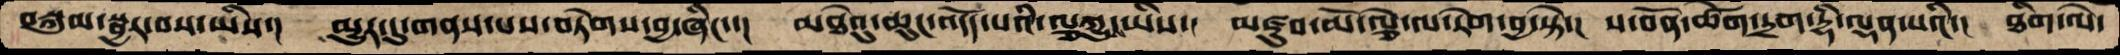བསྐུམ་སྦྱར་བས་ཡིས་།  མྱུར་དུ་གནས་པས་བཏེགས་བྱ་ཞིང་་།  མཐེའུ་ཆུང་འདོད་པའི་ལྕཀྱུ་ཡིས་།  མཛུབ་མོ་ལྕེ་ལ་རེག་བྱ་སྟེ་།   ས་བོན་ཚེག་དྲག་དྷི་ལྡན་པའི་།  ཐིག་ལེ་
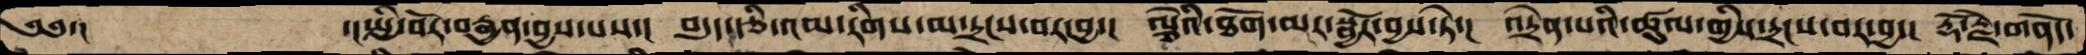༄༅་།              དངསྤྱི་བོར་བརྒྱན་བྱས་པས་།  བདུད་རྩི་འམ་རིགས་མ་དྲངས་བར་བྱ་།  ལྕེའི་ཐོག་མར་སྦྱོར་བྱས་ཏེ་།  འདྲེན་པའི་ཚུལ་གྱིས་དྲངས་བར་བྱ་།  རྡོ་རྗེ་གནོད་
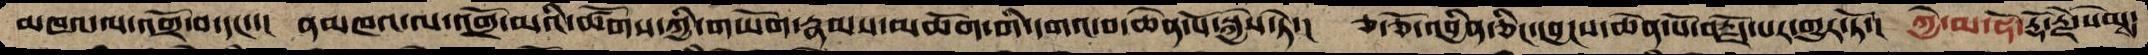མཁའ་ལ་འགྲོ་བ་དང་་།  ནམཁའ་ལ་འགྲོ་མའི་ཚོགས་ཀྱི་གཡོག་རྣམས་མཆོག་གི་དགའ་བ་ཆེན་པོ་སྐྱེས་ཏེ་། ཅ་ཅོ་འབྱིན་ཅིང་དབྱངས་ཆེན་པོ་བརྗོད་པར་འགྱུར་ཏོ་། ཀྱེ་མ་ཧོ་རྡོ་རྗེ་སེམས་
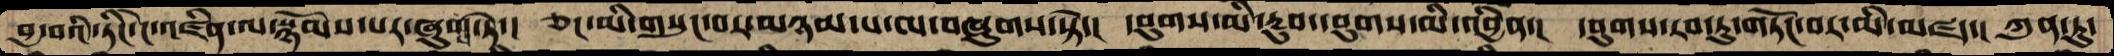བྱ་བའི་ཏིང་ངེ་འཛིན་ལ་སྙོམས་པར་ཞུགས་ཏེ་། ཅང་མི་གསུང་བར་མཉམ་པ་ལ་བཞུགས་སྟེ་། དབུགས་མི་རྔུབ་དབུགས་མི་འབྱིན་། དབུགས་རབ་ཏུ་གཏོང་བར་མི་མཛད་། ཀུན་ཏུ་
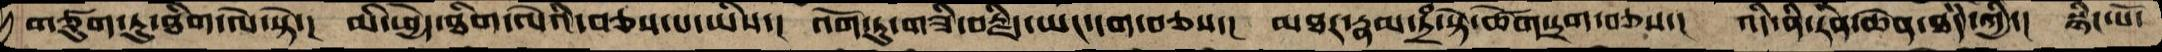གཙུག་ཏུ་ཐིག་ལེ་སྟེ་། མི་ཕྱེད་ཐིག་ལེའི་བཅས་པ་ཡིས་། འོག་ཏུ་གཟི་བརྗིད་ཡང་དག་བཅས་། མཐར་རྣམ་ཏྲཾ་སྟེ་ཚེག་དྲག་བཅས་། འདི་ནི་རིན་ཆེན་ཐདཾ་ཀྱི་། སྙིང་པོ་
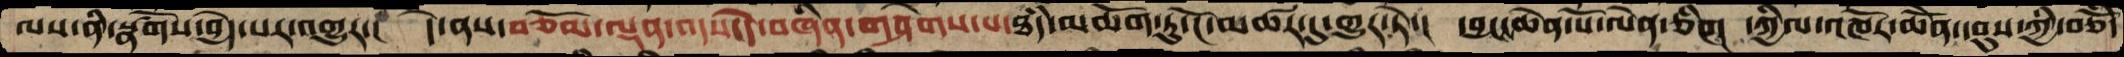ལས་ནི་སྣཚོགས་བྱེད་པར་འགྱུར་། དེ་ནས་བཅོམ་ལྡན་འདས་དེ་བཞིན་གཤེགས་པ་ཐདཾ་མཆོག་ཏུ་ངོ་མཚར་དུ་གྱུར་ཏེ་། དབྱངས་ཆེན་པོ་ལེན་ཅིག། དཀྱིལ་འཁོར་ཆེོན་དབུས་ཀྱི་བཅོཾད་
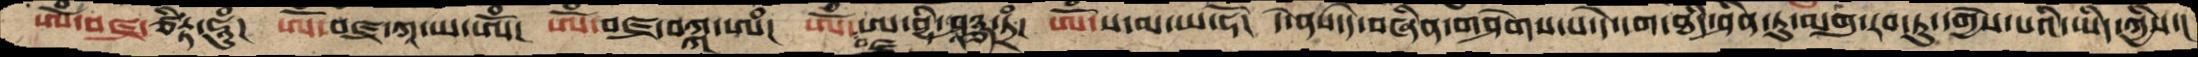ཨོཾ་བཛྲ་ཙིཏྟ་ཧཱུཾ། ཨོཾ་བཛྲ་ཀཱ་ཡ་ཨོཾ། ཨོཾ་བཛྲ་བཀྐ་ཨཾ། ཨོཾ་བཛྲ་ཨ་བྷི་ཤཱཉྩ་ཏྲཾ། ཨོཾ་ས་མ་ཡ་ཧོ། དེ་ནས་དེ་བཞིན་གཤེགས་པ་དེ་དག་ཐདཾ་ཤིན་ཏུ་མགུ་རབ་ཏུ་དགྱེས་པའི་ཡིད་ཀྱིས་།
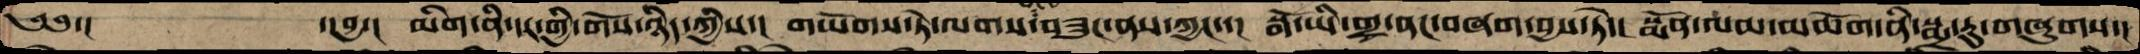༄༅་།   ་།བྱ་། མིག་ནི་དར་གྱི་གོས་ཉིད་ཀྱིས་། གཡོགས་ཏེ་ལགས་བཟུང་ནས་ཀྱང་་། སྒོ་ཡི་གྲྭ་ནང་བཞག་བྱས་ཏེ་། སྨོན་ལམ་མཆོག་ནི་སྨྲ་རུ་གཞུགས་།
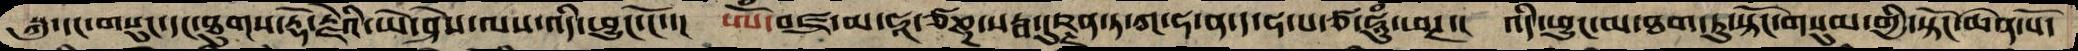སྐུ་དང་གསུང་དང་ཐུགས་རྡོ་རྗེའི་ཡེ་ཤེས་ལས་འདི་ཕྱུང་ངོ་་། ཨོཾ་བཛྲ་མ་ཧཱ་ཙཎྜ་སརྦ་དུཥྚན་ཏ་ཀ་ཧ་ན་ད་ཧ་པ་ཙ་ཧཱུཾ་ཕཊ་། འདི་ཕྱུང་མ་ཐག་ཏུ་སྟོང་གསུམ་གྱི་སྟོང་ཆེན་པོ་
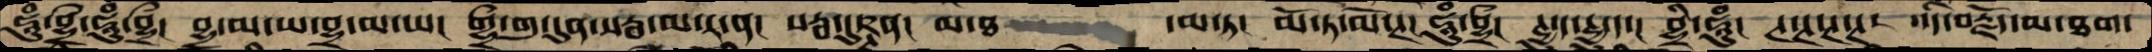ཧཱུཾ་བྷྲྀ་ཧཱུཾ་བྷྲྀ། བྷྲ་མ་ཡ་བྷྲ་མ་ཡ། གྷྲྀ་གུ་དུན་སརྦ་མ་ར་ན། སརྦ་དུཥྚན། མ་ཐ   ་མ་ཏ། མོ་ཏ་མོ་ཊ་ཧཱུཾ་བྷྲྀ། ཊྱ་ད་ཊྱ་ད་། བྷྲི་ཧཱུཾ། ཊ་ཊ་ཊ་ཊ། འདི་བརྗོད་མ་ཐག་
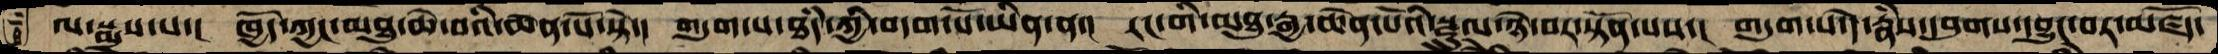ལ་སྨྲས་པ་། ཁྱོད་ཀྱང་མཐུ་ཆེ་བའི་ཆེན་པོ་སྟེ་། གདུག་པ་ཐདཾ་ཀྱི་བདག་པོ་ཡིན་ན་། རང་གི་མཐུ་རྒྱ་ཆེན་པོའི་སྫྲུལ་ཉེ་བར་སྟོན་པས་། གདུག་པ་དེ་རྣཾས་དབུགས་དབྱུང་བར་མཛོད་
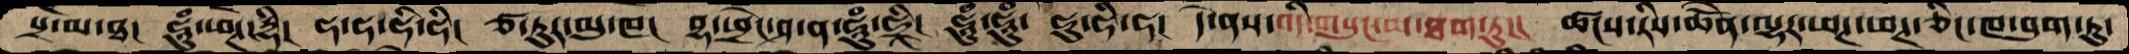པྲ་མ་ཐ། ཧཱུཾ་ཕཊ་དྷི། ཧ་ཧ་ཧི་ཧི། ཙ་ཏུར་མུ་ཁ། བྷ་ཕྲེང་ཤ་ན་ཧཱུཾ་ཧྲཱི། ཧཱུཾ་ཧཱུཾ་ ཧུ་ཧི་ཧ། དེ་ནས་འདི་གསུངས་མ་ཐག་ཏུ།། ཚངས་རིས་ཆེོན་ལྷར་ཕཊ་ཕཊ་ཅིང་ཁ་བུག་ཏུ་
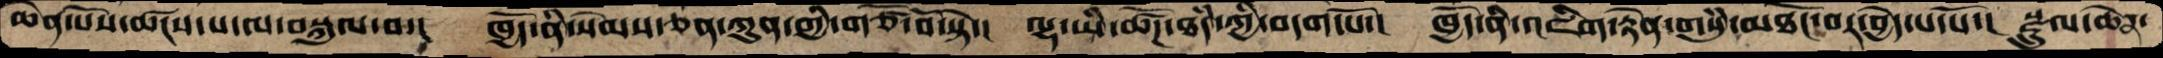ཆེན་པོས་ཚངས་པ་ལ་བསྐུལ་བ་། ཁྱོད་ནི་སེམས་ཅན་ཀུན་གྱི་གཙོ་བོ་སྟེ་། ལྷ་ཡི་ཚོཌ་ཐདཾ་ཀྱི་བདག་པོ་། ཁྱོད་ནི་འཇིག་རྟེན་གསུཾ་མཐོང་བར་བྱེད་པ་པོ་། སྫྲུལ་ཆེན་
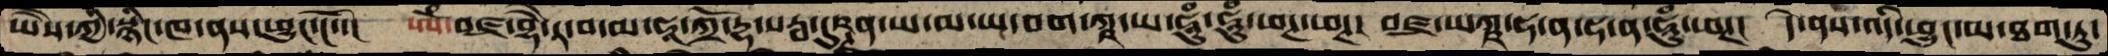ཡཻས་ཀྱི་སྙིང་ཁ་ནས་ཕྱུང་ངོ་་།  ཨོཾ་བཛྲ་བྷཻ་ཏ་བ་མ་ཧཱ་ཀྲོ་དྷ་སརྦ་དུཥྚན་ཡ་མ་ཡ་བག་ཀྵ་ཡ་ཧཱུཾ་ཧཱུཾ་ཕཊ་ཕཊ། བཛྲ་ཡཀྵ་ཧ་ན་ཧ་ན་ཧཱུཾ་ཕཊ། དེ་ནས་འདི་ཕྱུང་མ་ཐག་ཏུ་
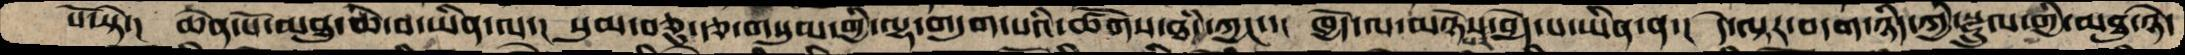པོ་སྟེ་། ཆེན་པོ་མཐུ་ཆེ་བ་ཡིན་ལ་། སུམ་བཅུ་རྩ་གསུམ་གྱི་ལྷ་གདུག་པའི་ཚོགས་ཐདཾ་ཀྱང་་། ཁྱེད་ལ་མཉེས་པར་བྱེད་པ་ཡིན་ན་། དེ་ལྟར་བདག་ཉིད་ཀྱི་སྫྲུལ་གྱི་མཐུ་ཉེ་
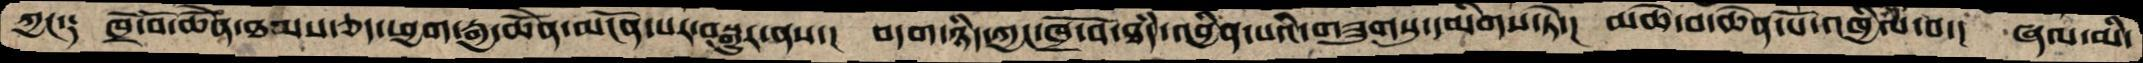ཀྱང༑ ཁྲོ་བོ་ཆེནོ་ཐམས་ཅད་ཕྱག་རྒྱ་ཆེནོ་མངོན་པར་བསྒྱུར་ནས་། བདག་ཉིད་ཀྱང་ཁྲོ་བོ་ཐདཾ་འབྱིན་པའི་གཟུགསུ་དམིགས་ཏེ་། མཆེ་བ་ཆེན་པོ་འཁྱིལ་བ་། ཞལ་མི་
